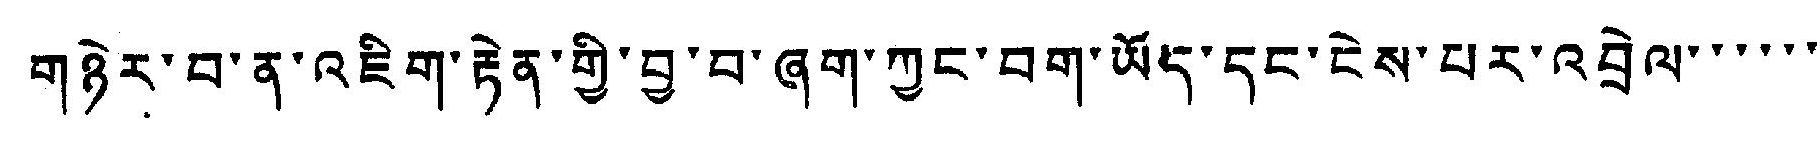གཉེར་བ་ན་འཇིག་རྟེན་གྱི་བྱ་བ་ཞག་ཀྱང་བག་ཡོད་དང་ངེས་པར་འབྲེལ་་་་་་
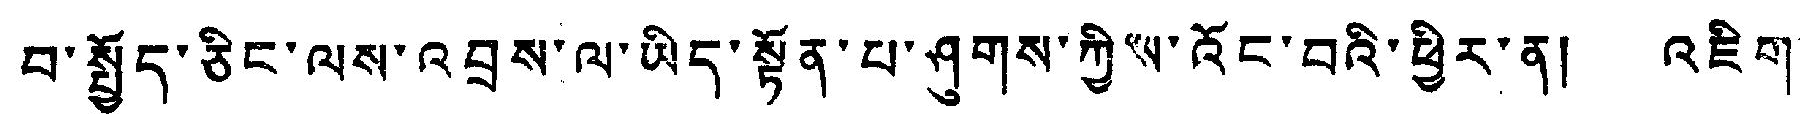བ་སྤྱོད་ཅིང་ལས་འབྲས་ལ་ཡིད་སྟོན་པ་ཤུགས་ཀྱིས་འོང་བའི་ཕྱིར་ན། འཇིག་
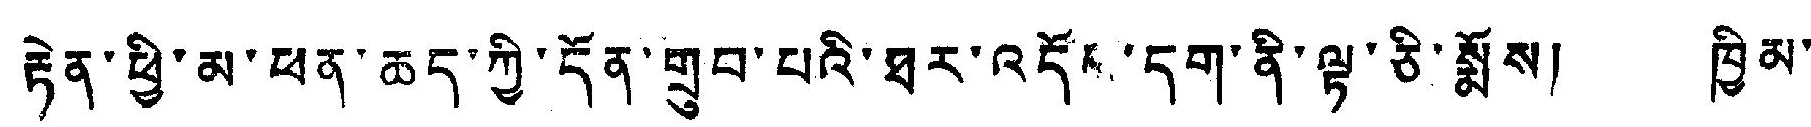རྟེན་ཕྱི་མ་ཕན་ཆད་ཀྱི་དོན་གྲུབ་པའི་ཐར་འདོས་དག་ནི་ལྟ་ཅི་སྨོས། ཁྱིམ་
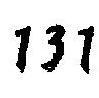131
